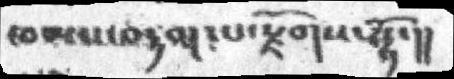ཁམས་བརྟག་པ་སྫོགས་སྷོ་།།
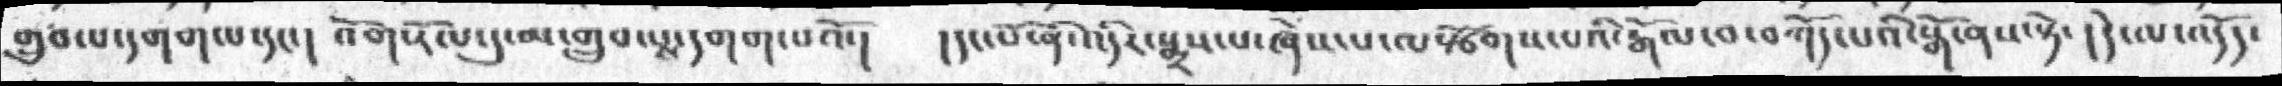གྲུབ་པ་དགག་པ་དང་།  འོག་རོལ་དུ་མ་གྲུབ་པས་དགག་པའོ་།  །དང་པོ་ནི་འདིར་སྨྲས་པ་ཞེས་པ་ལསྩོགས་པའི་རྒོལ་བ་བཀོད་པའི་སྒོ་ནས་སྟེ་།  དེ་ལ་འདོད་
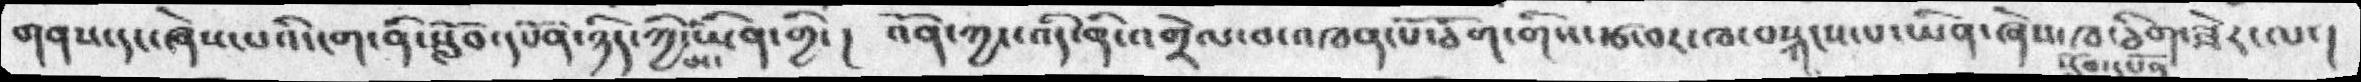གནས་དང་ཞེས་པའི་ངག་ནི་སློབ་དཔོན་ཉིད་ཀྱི་མ་ཡིན་གྱི་།  འོན་ཀྱང་འདི་ན་འགྲེལ་བ་འཁན་པོ་ཅིག་གིས་རྩ་བར་ཁ་བསྐངས་པ་ཡིན་ཞེས་སློབ་དཔོན་ཁ་ཅིག་ཟེར་ལ་།
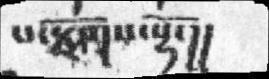པ་རྫོགས་སྷོ་།།
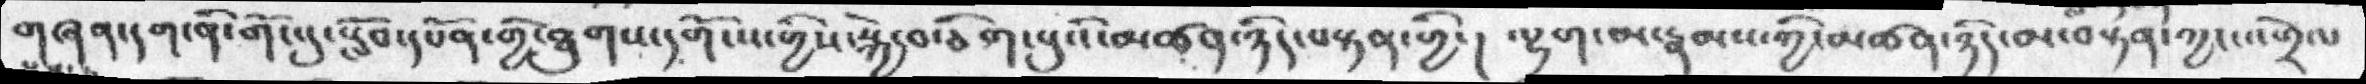གཞན་དག་ནི་གོང་དུ་སློབ་དཔོན་གྱི་ཐུགས་དགོངས་གྱིས་སྐྱེ་བ་ཅིག་པུའི་མཚན་ཉིད་བསྟན་གྱི་།   ལྷག་མ་རྣམས་ཀྱི་མཚན་ཉིད་མ་བསྟན་ཀྱང་འགྲེལ་
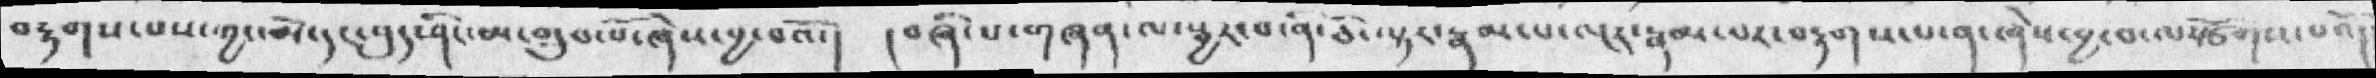བརྟགས་པས་ཀྱང་མེ་དང་བུད་ཤིང་མ་གྲུབ་པོ་ཞེས་བྱ་བའོ་།  ། བཞི་པ་གཞན་ལ་སྦྱར་བ་ནི་ཅི་ལྟར་རྣམ་པ་ལྔར་རྣམ་པར་བརྟགས་པ་ན་ཞེས་བྱ་བ་ལསྩོགས་པའོ།
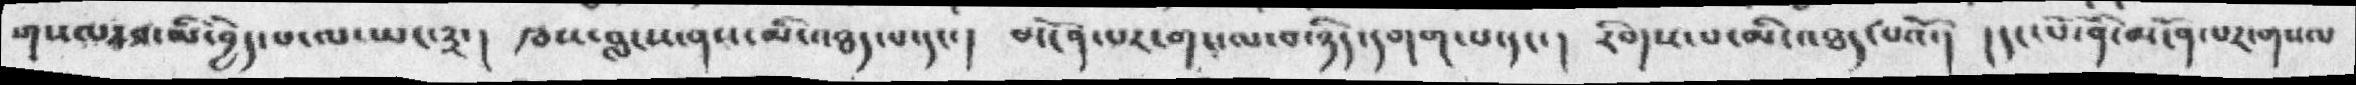གསལ་བ་མི་བྱེད་པ་ལ་ཡང་༣་།  ཁས་བླངས་ནས་མི་འཐད་པ་དང་། མངོན་པར་གསལ་བ་ཉིད་དགག་པ་དང་།  རིགས་པ་མི་འཐད་པའོ་།  །དང་པོ་ནི་མངོན་པར་གསལ
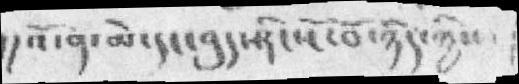།། འོ་ན་མེ་དང་བུད་ཤིང་ངོ་བོ་ཉིད་ཀྱིས་ །
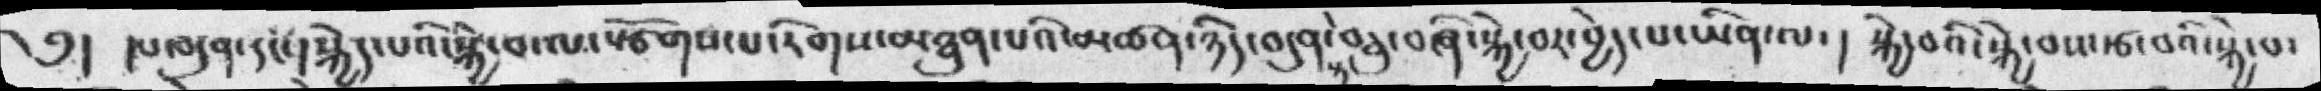༄།  །པ་བདུན་དང་། སྐྱེད་པའི་སྐྱེ་བ་ལ་སྩོགས་པ་རིགས་མཐུན་པའི་མཚན་ཉིད་བདུན་སྟེ་བཅུ་བཞི་སྐྱེ་བར་བྱེད་པ་ཡིན་ལ་།  སྐྱེ་བའི་སྐྱེ་བས་རྩ་བའི་སྐྱེ་བ་
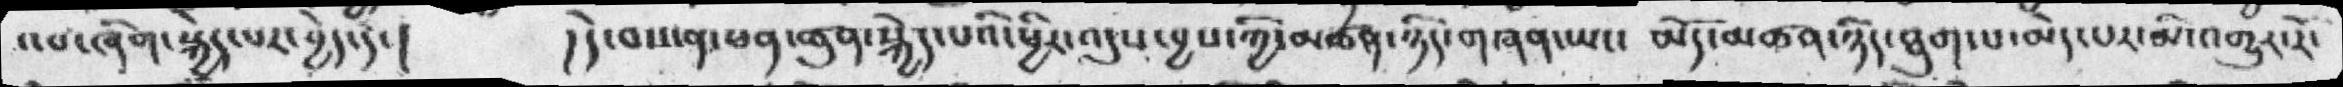འབ་ཞིག་སྐྱེད་པར་བྱེད་དེ་།    །དེ་བས་ན་ཕན་ཚུན་སྐྱེད་པའི་ཕྱིར་འདུས་བྱས་ཀྱི་མཚན་ཉིད་གཞན་ཡང་   མདོ་མཚན་ཉིད་ཐུག་པ་མེད་པར་མི་འགྱུར་རོ་
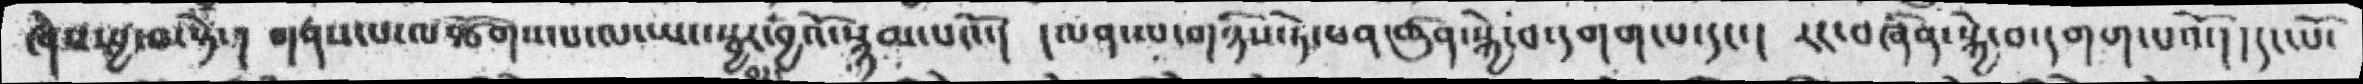ཞེས་བྱ་བ་སྟེ་།   གནས་པ་ལསྩོགས་པ་ལ་ཡང་སྦྱར་བར་བྱའོ་སྙམ་པའོ་།   །ལན་ལ་གཉིས་ཏེ་ཕན་ཚུན་སྐྱེ་བ་དགག་པ་དང་།  རང་བཞིན་སྐྱེ་བ་དགག་པའོ་།   །དང་པོ་
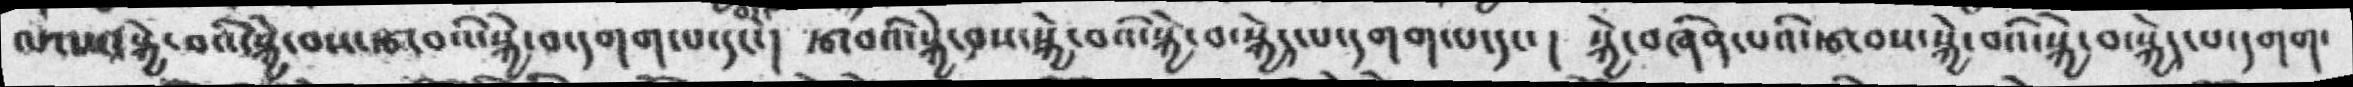ལ་ཡང་སྐྱེ་བའི་སྐྱེ་བས་རྩ་བའི་སྐྱེ་བ་དགག་པ་དང་།  རྩ་བའི་སྐྱེ་བས་སྐྱེ་བའི་སྐྱེ་བ་སྐྱེད་པ་དགག་པ་དང་།   སྐྱེ་བཞིན་པའི་རྩ་བས་སྐྱེ་བའི་སྐྱེ་བ་སྐྱེ་པ་དགག་
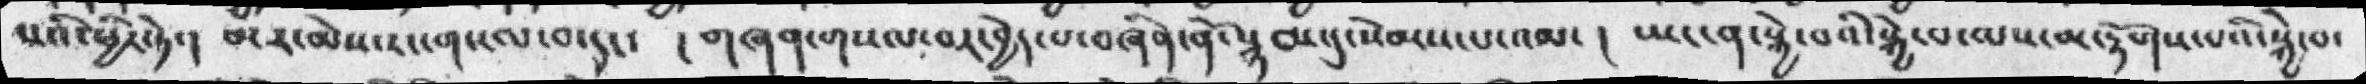པའི་ཕྱིར་ཏེ་།   མར་མེས་རང་གསལ་བ་དང་     །གཞན་གསལ་བར་བྱེད་པ་བཞིན་ནོ་སྙམ་དུ་སེམས་པ་འམ་  ། ཡང་ན་སྐྱེ་བའི་སྐྱེ་བ་ལས་མ་རྟོགས་པའི་སྐྱེ་བ་
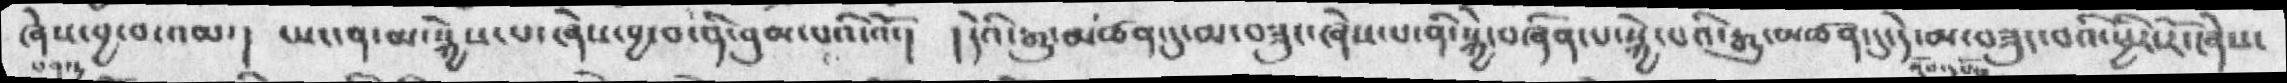ཞེས་བྱ་བ་འམ་།   ཡང་ན་མ་སྐྱེས་པ་ཞེས་བྱ་བ་ནི་བུམ་པའི་འོང་།   །དེའི་རྒྱུ་མཚན་དུ་མ་བཟུང་ཞེས་པ་ནི་སྐྱེ་བཞིན་པ་སྐྱེ་པའི་རྒྱུ་མཚན་དུ་དེ་མ་བཟུང་བའི་ཕྱིར་རོ་ཞེས་
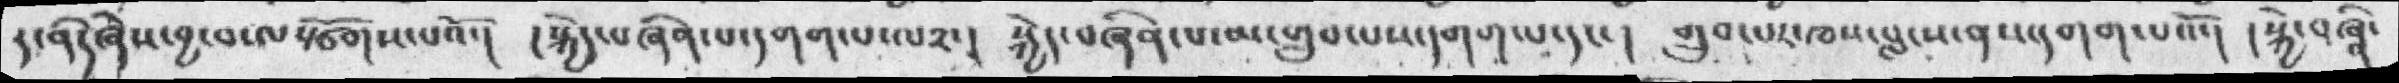ད་ནི། ཞེས་བྱ་བ་ལསྩོགས་པའོ་།  །སྐྱེད་བཞིན་པ་དགག་པ་ལ༢་།  སྐྱེད་བཞིན་པ་མ་གྲུབ་པས་དགག་པ་དང་།   གྲུབ་པར་ཁས་བླངས་ནས་དགག་པའོ་།  །སྐྱེ་བཞིན་
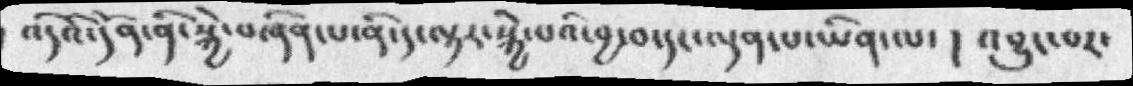འདིའི་དོན་ནི་སྐྱེ་བཞིན་པ་ནི་ད་ལྟར་སྐྱེ་པའི་བྱ་བ་དང་ལྡན་པ་ཡིན་ལ་།  འབྱུང་བར་
